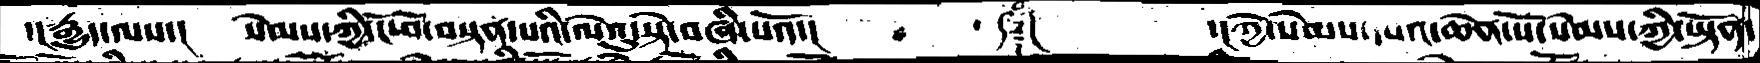་།རྒྱུད་ལས་།  སེམས་ཀྱི་ངོ་བོ་བསྟན་པའི་ལེའུ་སྟེ་བཞི་པའོ་།     ༼ ༈ ༽   ་།ཀྱེ་སེམས་དཔའ་ཆེན་པོ་སེམས་ཀྱི་ཡྟོན་
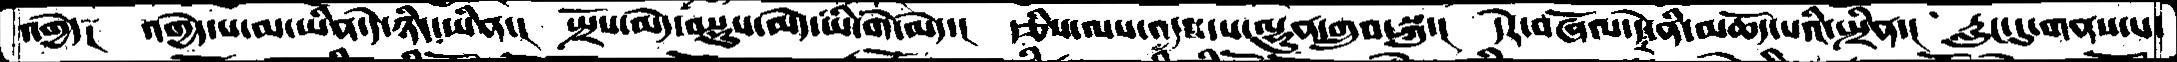འགྱེད༑  འགྱེད་པ་མ་ཡིན་དེ་ཉིད་ཡིན་།  སྤྲོས་མེད་བསྡུས་མེད་ཡི་གེ་མེད་།  རྩིས་ལས་འདས་པ་ལྷུན་གྲུབ་སྐུ་།  དེར་བཞོལ་དེར་ནི་མཆོད་པའི་སྤྲིན་།  རླུང་དུ་གནས་པ་
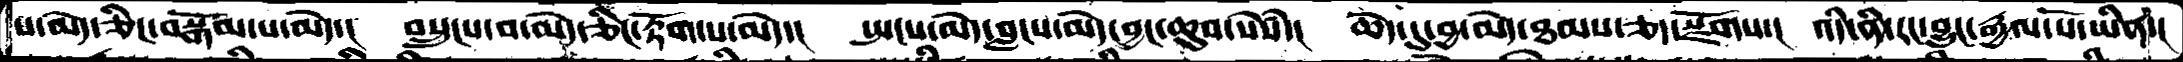པ་མེད་ཅིང་བསྒོམ་པ་མེད་།  བསྲུངས་བ་མེད་ཅིང་རྟོག་པ་མེད་།  སྤངས་མེད་བླངས་མེད་བྱང་ཆུབ་སེཾས་།  ཆེད་དུ་བྱ་མེད་ཐམས་ཅད་སྫོགས་།  འདི་ནི་རང་བྱུང་རྒྱལ་པོ་ཡིན་།
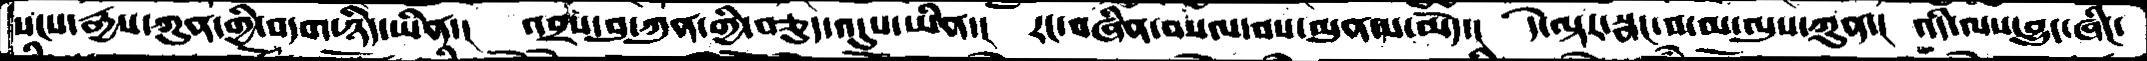སངས་རྒྱས་ཀུན་གྱི་བདག་ཉིད་ཡིན་།  འབྲས་བུ་ཀུན་གྱི་བཅུད་འདུས་ཡིན་།  རང་བཞིན་བསལ་བས་མུན་པ་མེད་།  དེ་ལྟར་སྣང་བ་མ་ལུས་ཀུན་།  འདི་ལས་བྱུང་ཞིང་
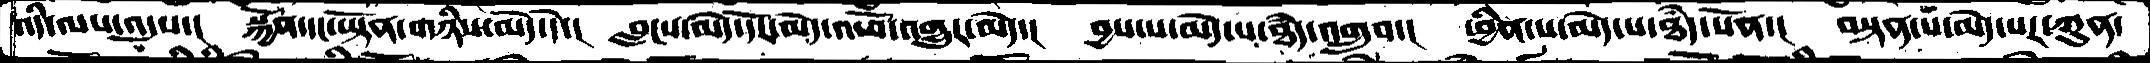འདི་ལས་འདུས་།  སྐྱོན་དང་ཡྟོན་གཉིས་མེད་དེ་།  བླངས་མེད་དོར་མེད་འཕོ་འགྱུར་མེད་།  བྱས་པ་མེད་པ་ཐདཾ་འགྲུབ་།  ཕྱིན་པ་མེད་པ་ཐདཾ་སོན་།  བསྟན་པ་མེད་པར་ཀུན་
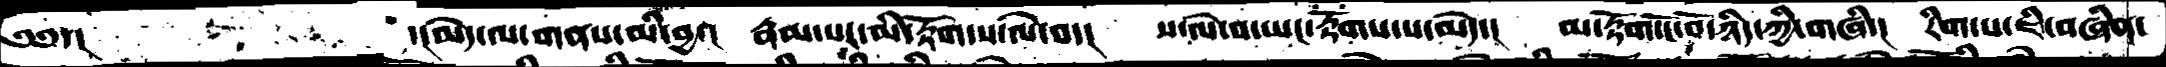༄༅་།     ་།མེད་ལ་གནས་མི་བྱ་།  རྣམ་པར་མི་རྟོག་ས་ལེ་བ་།  ས་ལེ་བ་ཡང་རྟོགས་པ་མེད་།  མ་རྟོག་ངོ་བོ་ཉིད་ཀྱི་གཞི་།  རིག་པ་ཇི་བཞིན་
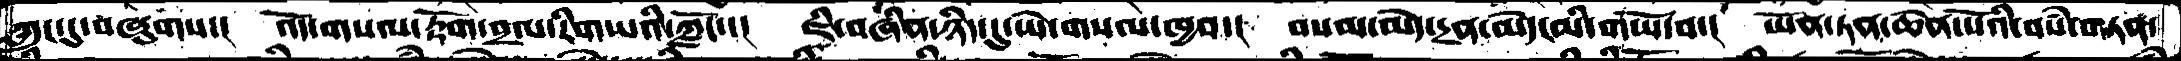ཀླུང་དུ་བཞུགས་།  འོད་གསལ་རྟོག་བྲལ་རིག་པའི་ཀློང་་།  ཇི་བཞིན་ཉིད་དུ་ཡེ་གསལ་ཁྱབ་།  བསམ་མེད་དྲན་མེད་མི་གཡོ་བ་།  ཡོན་ཏན་ཆེན་པོའི་བསཾ་གཏན་
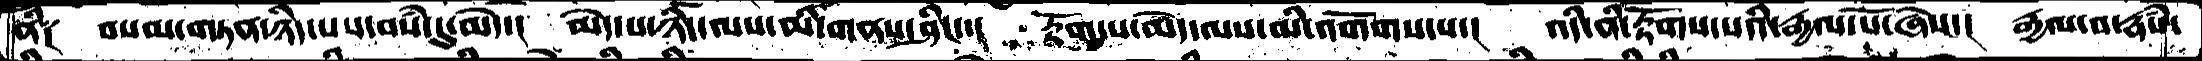ནི༑  བསམ་གཏན་ཉིད་པས་བསཾ་དུ་མེད་།  མེད་པ་ཉིད་ལས་མི་གནས་ཤིང་་།  རྟོག་ན་མེད་ལས་མི་འགོགས་པ་།  འདི་ནི་རྟོགས་པའི་རྒྱལ་པོ་ཞེས་།  རྒྱལ་བ་རྣཾས་
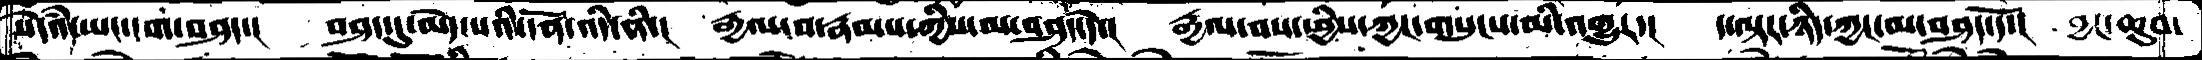སེདཾའ་ཡང་དག་བཤད་།  བཤད་དུ་མེད་པའི་དོན་འདི་ནི་།  རྒྱལ་བ་རྣམས་ཀྱིས་མ་བཤད་དེ་།  རྒྱལ་བས་ཕྱིས་ཀྱང་གསུངས་མི་འགྱུར་།  ད་ལྟར་ཉིད་ཀྱང་མ་བཤད་དོ་།  བྱང་ཆུབ་
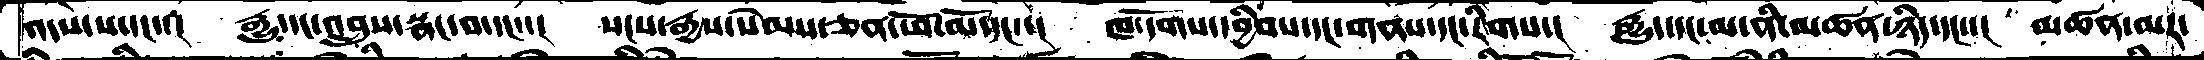འདས་པ་དང་་།  རྒྱུ་དང་འབྲུས་སྣང་བ་དང་་།  སངས་རྒྱས་སེམས་ཅན་ཕོ་མོ་དང་།  ཁ་དོགས་དབྱིབས་དང་གནས་དང་རིགས་།  རྒྱུད་དང་མ་ནི་མཚན་ཉིད་དང་་། མཚན་མར་
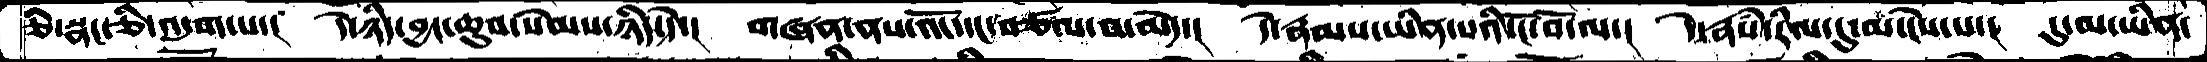ཅི་སྣང་ཅི་འདུག་པ་།  དེ་ཉིད་བྱང་ཆུབ་སེམས་ཉིད་དེ་།   གཞན་ནས་འོང་དང་བཙལ་བ་མེད་།  དེ་རྣམས་ཡིན་པའི་ངོ་བོ་ལ་།  དེ་རྣཾས་རིལ་དུ་མ་ངེས་པ་།  དུ་མ་ཡིན་
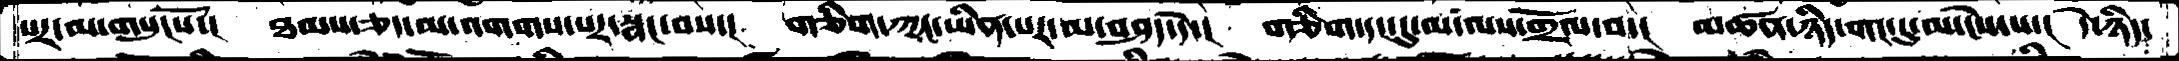པར་མ་གསུངསོ་།  ཐམས་ཅད་མ་འགགས་པར་སྣང་བས་།  གཅིག་ཀྱང་ཡིན་པར་མ་བཤད་དེ་།  གཅིག་དང་དུ་མ་ལས་གྲོལ་བ་།  མཚན་ཉིད་གང་དུ་མ་ངེས་པ་།  དེ་ཉིད་
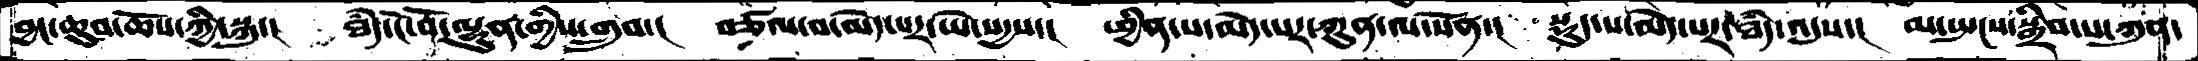བྱང་ཆུབ་ཆོས་ཀྱི་སྐུ་།  ཐདཾ་ངོ་བོ་ལྷུན་གྱིས་གྲུབ་།  བཙལ་བ་མེད་པར་ཡེ་སདྱས་།  ཕྱིན་པ་མེད་པར་ཀུན་ལ་སོན་།  སྡུད་པ་མེད་པར་ཐདཾ་འདུས་།  མ་སྤངས་སྒྲིབ་པ་ཀུན་
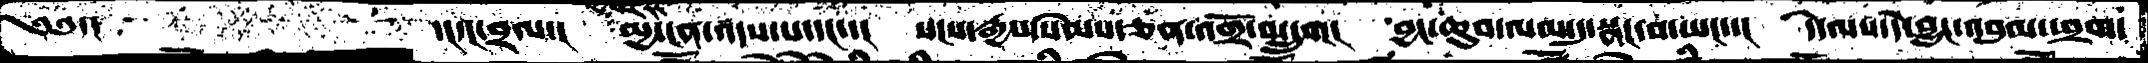༄༅་།    ་།དང་བྲལ་།  མྱ་ངན་འདས་པ་དང་་།  སངས་རྒྱས་སེམས་ཅན་འགྲོ་བ་དྲུག།  བྱང་ཆུབ་ལམ་དུ་སྣང་བ་ཡང་་།  དེ་ལས་དེ་བྱུང་འབུམ་ཕྲག་
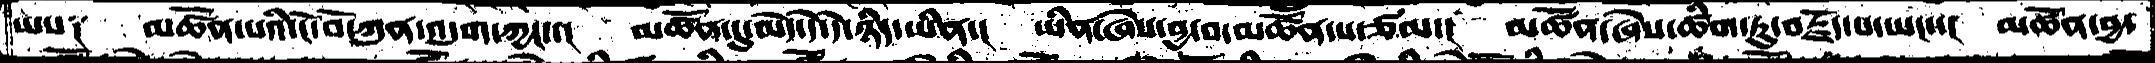ཡས༑  མཚོན་པའི་ངོ་བོ་ཀུན་འདུག་ཀྱང་་།  མཚོན་དུ་མེད་དེ་དེ་ཉིད་ཡིན་།  ཡིན་ཞེས་བྱ་བ་མཚོན་པ་ཙམ་།  མཚོན་ཞེས་ཚིག་ཏུ་བརྗོད་པ་ཡང་་།  མཚོན་བྱ་
